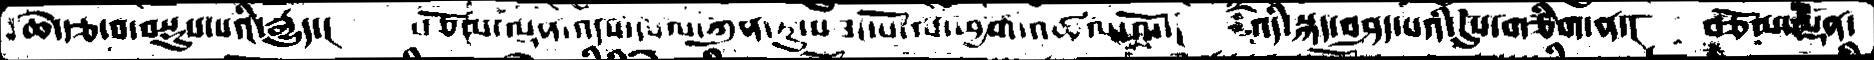ཆེ་རྩ་བ་བསྡུས་པའི་རྒྱུད་།  བཅོམ་ལྡན་འདས་དཔལ་ཀུན་ཏུ་བཟང་པོ་ལ་ཕྱག་འཚལ་ལོ་།   འདི་སྐད་བཤད་པའི་དུས་གཅིག་ན་།  བཅོམ་ལྡན་
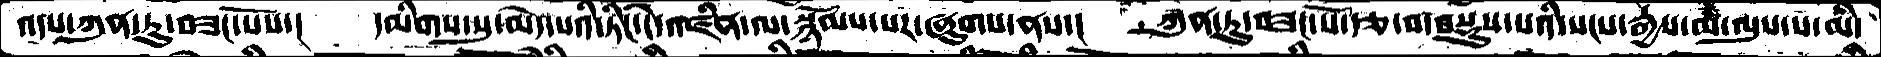འདས་ཀུན་ཏུ་བཟང་པོས་།   དམིགས་སུ་མེད་པའི་ཏིང་ངེ་འཛིན་ལ་སྙོམས་པར་ཞུགས་ནས་།   ཀུན་ཏུ་བཟང་པོ་རྩ་བ་བསྡུས་པའི་སངས་རྒྱས་མ་ལུས་པ་མི་
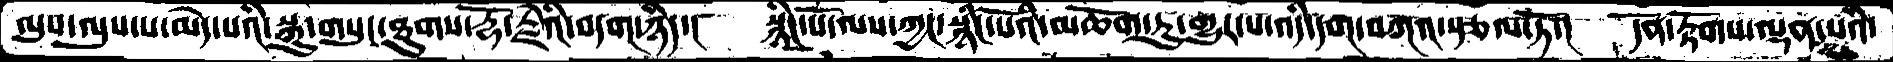ལུས་ལུས་པ་མེད་པའི་སྐུ་གསུང་ཐུགས་རྡོ་རྗེའི་བདག་ཉིད་།  སྙིང་པོ་ལས་ཀྱང་སྙིང་པོའི་མཆོག་ཏུ་གྱུར་པ་འདི་དག་བཀའ་སྩལ་ཏོ་།   དོན་རྟོགས་ལྡན་པའི་
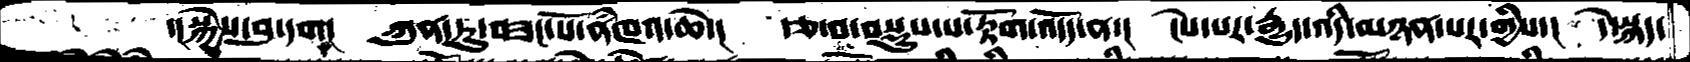་།སྐྱེས་བུ་དག།   ཀུན་ཏུ་བཟང་པོ་ནཾཁའ་ཆེ་།  རྩ་བ་བསྡུས་པ་རྟོག་འདོད་ན་།  ངེས་པར་རྒྱུད་འདི་མཉན་པར་གྱིས་།  དེ་སྐད་
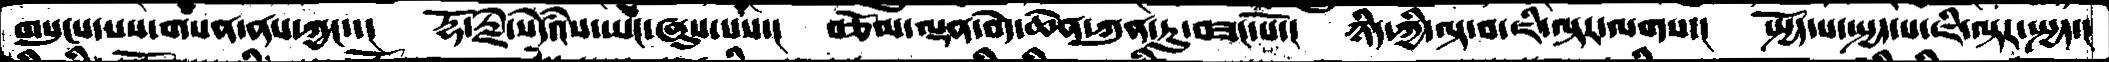གསུངས་པས་གསན་ནས་ཀྱང་་།   རྡོ་རྗེ་སེཾདའ་ཡང་ཞུས་པས་།   བཅོམ་ལྡན་བདེ་ཆེན་ཀུན་ཏུ་བཟང་པོ་།  ཉིད་ཀྱི་ལྟ་བ་ཇི་ལྟར་ལགས་།  སྤྱོད་པ་སྤྱད་པ་ཇི་ལྟར་སྤྱད་།
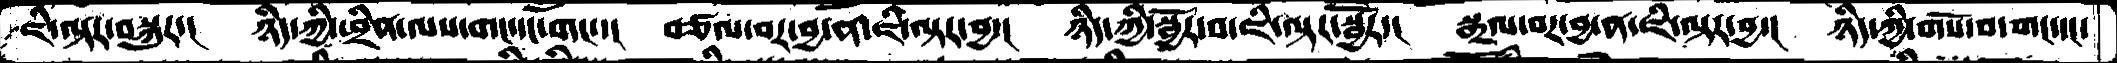ཇི་ལྟར་བསྐུར་།  ཉིད་ཀྱི་ཕྲིན་ལས་གང་དང་གང་་།   བཙལ་བར་བྱ་ན་ཇི་ལྟར་བྱ་།  ཉིད་ཀྱི་སྦྱོར་བ་ཇི་ལྟར་སྦྱོར་།  སྒྲལ་བར་བྱ་ན་ཇི་ལྟར་བྱ་།  ཉིད་ཀྱི་གསོ་བ་གང་དང་
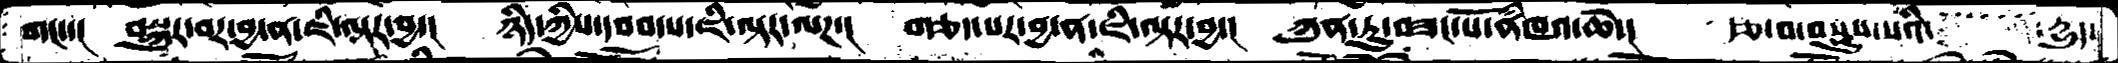གང་་།   བསྐུར་བར་བྱ་ན་ཇི་ལྟར་བྱ་།   ཉིད་ཀྱིས་དབབ་པ་ཇི་ལྟར་ལཌ་།  གཅད་པར་བྱ་ན་ཇི་ལྟར་བྱ་།  ཀུན་ཏུ་བཟང་པོ་ནཾཁའ་ཆེ་།  རྩ་བ་བསྡུས་པའི་     དྱུད་
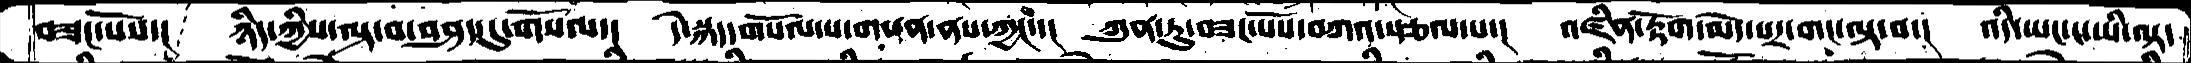བཟང་པོས་།    ཉིད་ཀྱིས་ལྟ་བ་བཤད་དུ་གསོལ་།  དེ་སྐད་གསོལ་པ་གསན་ནས་ཀྱང་་།  ཀུན་ཏུ་བཟང་པོས་བཀའ་སྩལ་པ་།  འཛིན་རྟོག་མེད་པར་གང་ལྟ་བ་།  འདི་ཡང་ང་ཡི་ལྟ་
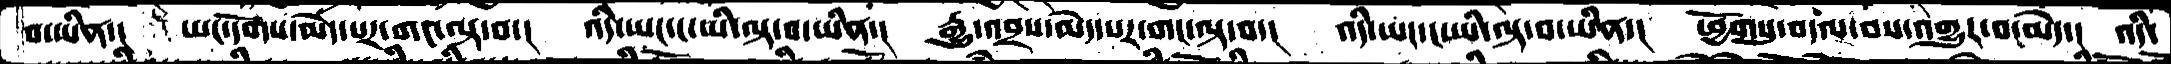བ་ཡིན་།   ཡང་དོགས་མེད་པར་གང་ལྟ་བ་།  འདི་ཡང་ང་ཡི་ལྟ་བ་ཡིན་།  རྒྱུ་འབྲས་མེད་པར་གང་ལྟ་བ་།  འདི་ཡང་ང་ཡི་ལྟ་བ་ཡིན་།  ཕྱོགསུ་བདལ་བས་འགྱུར་བ་མེད་།  འདི་
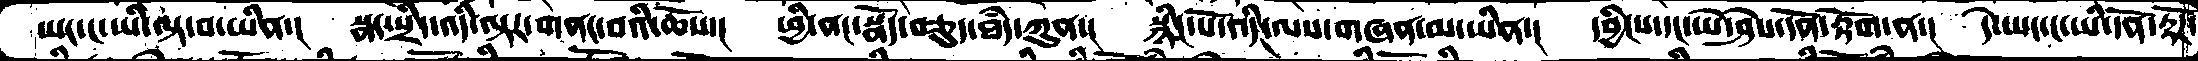ཡང་ང་ཡི་ལྟ་བ་ཡིན་།  སྣང་སྲིད་འདི་ལྟར་གནང་བའི་ཆོས་།  ཕྱི་ནང་སྣོད་བཅུད་ཐཾད་ཀུན་།  སྙིང་པོ་འདི་ལས་གཞན་མ་ཡིན་།  དབྱིངས་དང་ཡེ་ཤེས་དོན་རྟོག་ན་།  དེ་ཡང་ང་ཡི་དོན་རྟོཌ་
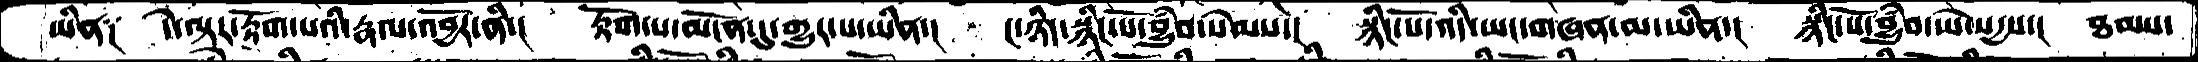ཡིན༑  དེ་ལྟར་རྟོག་པའི་རྣལ་འབྱོར་ནི་།  རྟོག་པ་མངོན་དུ་གྱུར་པ་ཡིན་།  ང་ཉིད་སྙིང་པོ་བྱུཾབ་སེམས་།  སྙིང་པོ་འདི་ཡང་གཞན་མ་ཡིན་།  སྙིང་པོ་བྱུཾབ་ཡེ་སདྱས་།  ཐམས་
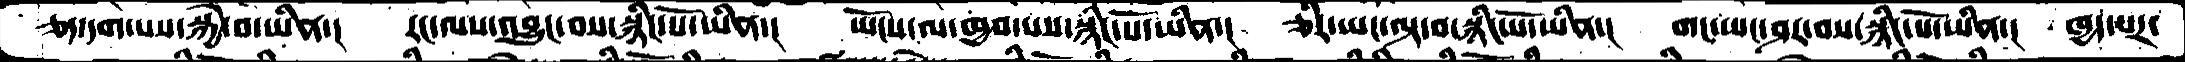ཅད་དག་པས་སྐྱེ་བ་ཡིན་།  རང་ལས་འབྱུང་བས་སྙིང་པོ་ཡིན་།  ཡོངས་ལ་ཁྱབ་པས་སྙིང་པོ་ཡིན་།  ཅིར་ཡང་ལྟ་བ་སྙིང་པོ་ཡིན་།  གང་ཡང་ཤར་བས་སྙིང་པོ་ཡིན་།  ཁྱད་པར་
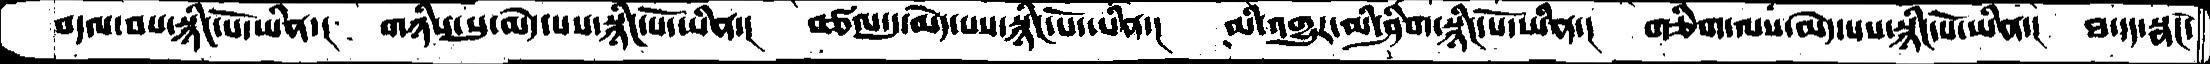བདལ་བས་སྙིང་པོ་ཡིན་།  གཉིས་སུ་མེད་པས་སྙིང་པོ་ཡིན་།  བཙལ་དུ་མེད་པས་སྙིང་པོ་ཡིན་།  མི་འགྱུར་མི་ཤིག་སྙིང་པོ་ཡིན་།  གཅིག་ལས་མེད་པས་སྙིང་པོ་ཡིན་།  ཐ་དད་སྣང་
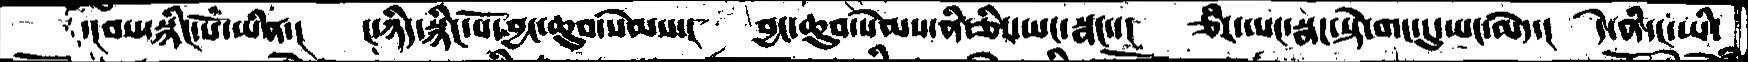་།བས་སྙིང་པོ་ཡིན་།  ང་ཉིད་སྙིང་པོ་བྱང་ཆུབ་སེམས་།  བྱང་ཆུབ་སེམས་ནི་ཅིར་ཡང་སྣང་་།  ཅིར་ཡང་སྣང་སྟེ་གང་དུ་ཡང་མེད་།  དེ་ནི་ང་ཡི་
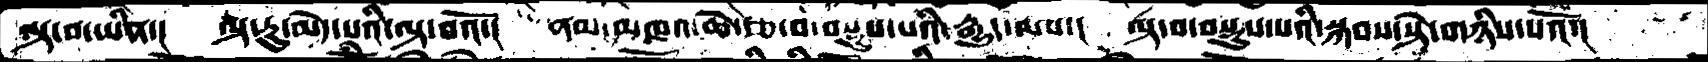ལྟ་བ་ཡིན་།   ལྟ་རུ་མེད་པའི་ལྟ་བའོ་།  ནམ་མཁའ་ཆེ་རྩ་བ་བསྡུས་པའི་རྒྱུད་ལས་།  ལྟ་བ་བསྡུས་པའི་སྐབས་སྟེ་གཉིས་པའོ་།
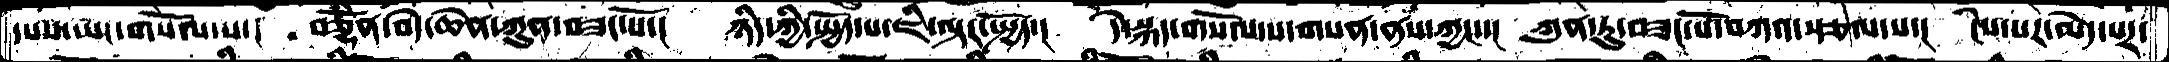དཔས་ཡང་གསོལ་པ་།  བཅྡོཾན་བདེ་ཆེན་ཀུན་བཟང་པོ་།  ཉིད་ཀྱི་སྤྱོད་པ་ཇི་ལྟར་སྤྱོད་།  དེ་སྐད་གསོལ་པ་གསན་ནས་ཀྱང་་།  ཀུན་ཏུ་བཟང་པོ་བཀའ་སྩལ་པ་།  ངེས་པར་མེད་པར་
